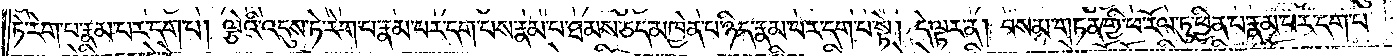ཏེ་རེག་པ་རྣམ་པར་དག་པ། ལྕེའི་འདུས་ཏེ་རེག་པ་རྣམ་པར་དག་པས་རྣམ་པ་ཐམས་ཅད་མཁྱེན་པ་ཉིད་རྣམ་པར་དག་པ་སྟེ། དེ་ལྟར་ན། བསམ་གཏན་གྱི་ཕ་རོལ་ཏུ་ཕྱིན་པ་རྣ་པར་དག་པ་
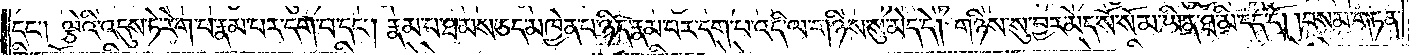དང༌། ལྕེའི་འདུས་ཏེ་རེག་པ་རྣམ་པར་དག་པ་དང༌། རྣམ་པ་ཐམས་ཅད་མཁྱེན་པ་ཉིད་རྣམ་པར་དག་པ་འདི་ལ་གཉིས་སུ་མེད་དེ། གཉིས་སུ་བྱར་མེད་སོ་སོ་མ་ཡིན་ཐ་མི་དད་དོ། །བསམ་གཏན་
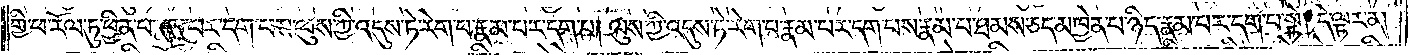གྱི་ཕ་རོལ་ཏུ་ཕྱིན་པ་རྣ་པར་དག་པས་ལུས་ཀྱི་འདུས་ཏེ་རེག་པ་རྣམ་པར་དག་པ། ལུས་ཀྱི་འདུས་ཏེ་རེག་པ་རྣམ་པར་དག་པས་རྣམ་པ་ཐམས་ཅད་མཁྱེན་པ་ཉིད་རྣམ་པར་དག་པ་སྟེ། དེ་ལྟར་ན།
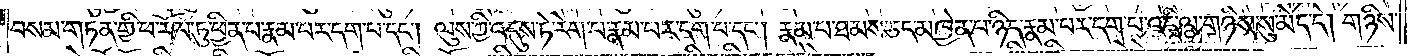བསམ་གཏན་གྱི་ཕ་རོལ་ཏུ་ཕྱིན་པ་རྣམ་པར་དག་པ་དང༌། ལུས་ཀྱི་འདུས་ཏེ་རེག་པ་རྣམ་པར་དག་པ་དང༌། རྣམ་པ་ཐམས་ཅད་མཁྱེན་པ་ཉིད་རྣམ་པར་དག་པ་འདི་ལ་གཉིས་སུ་མེད་དེ། གཉིས་
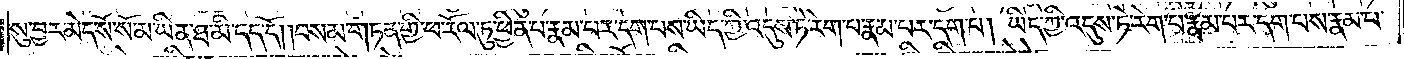སུ་བྱར་མེད་སོ་སོ་མ་ཡིན་ཐ་མི་དད་དོ། །བསམ་གཏན་གྱི་ཕ་རོལ་ཏུ་ཕྱིན་པ་རྣམ་པར་དག་པས་ཡིད་ཀྱི་འདུས་ཏེ་རེག་པ་རྣམ་པར་དག་པ། ཡིད་ཀྱི་འདུས་ཏེ་རེག་པ་རྣམ་པར་དག་པས་རྣམ་པ་
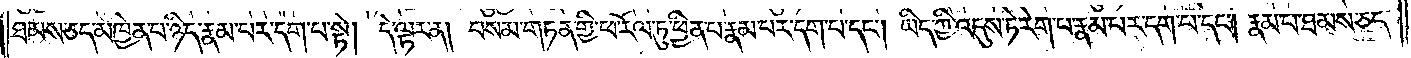ཐམས་ཅད་མཁྱེན་པ་ཉིད་རྣམ་པར་དག་པ་སྟེ། དེ་ལྟར་ན། བསམ་གཏན་གྱི་ཕ་རོལ་ཏུ་ཕྱིན་པ་རྣམ་པར་དག་པ་དང༌། ཡིད་ཀྱི་འདུས་ཏེ་རེག་པ་རྣམ་པར་དག་པ་དང༌། རྣམ་པ་ཐམས་ཅད་
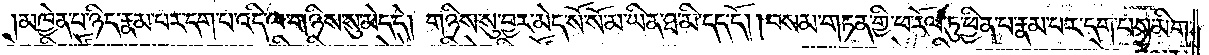མཁྱེན་པ་ཉིད་རྣམ་པར་དག་པ་འདི་ལ་གཉིས་སུ་མེད་དེ། གཉིས་སུ་བྱར་མེད་སོ་སོ་མ་ཡིན་ཐ་མི་དད་དོ། །བསམ་གཏན་གྱི་ཕ་རོལ་ཏུ་ཕྱིན་པ་རྣམ་པར་དག་པས་མིག་
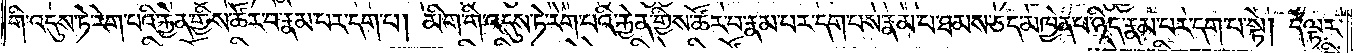གི་འདུས་ཏེ་རེག་པའི་རྐྱེན་གྱིས་ཚོར་བ་རྣམ་པར་དག་པ། མིག་གི་འདུས་ཏེ་རེག་པའི་རྐྱེན་གྱིས་ཚོར་བ་རྣམ་པར་དག་པས་རྣམ་པ་ཐམས་ཅད་མཁྱེན་པ་ཉིད་རྣམ་པར་དག་པ་སྟེ། དེ་ལྟར་
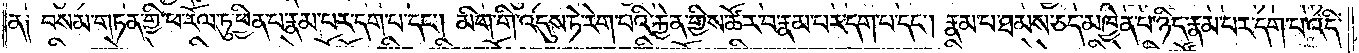ན། བསམ་གཏན་གྱི་ཕ་རོལ་ཏུ་ཕྱིན་པ་རྣམ་པར་དག་པ་དང༌། མིག་གི་འདུས་ཏེ་རེག་པའི་རྐྱེན་གྱིས་ཚོར་བ་རྣམ་པར་དག་པ་དང༌། རྣམ་པ་ཐམས་ཅད་མཁྱེན་པ་ཉིད་རྣམ་པར་དག་པ་འདི་
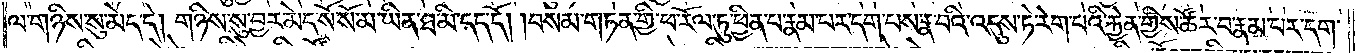ལ་གཉིས་སུ་མེད་དེ། གཉིས་སུ་བྱར་མེད་སོ་སོ་མ་ཡིན་ཐ་མི་དད་དོ། །བསམ་གཏན་གྱི་ཕ་རོལ་ཏུ་ཕྱིན་པ་རྣམ་པར་དག་པས་རྣ་བའི་འདུས་ཏེ་རེག་པའི་རྐྱེན་གྱིས་ཚོར་བ་རྣམ་པར་དག་
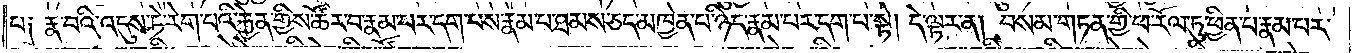པ། རྣ་བའི་འདུས་ཏེ་རེག་པའི་རྐྱེན་གྱིས་ཚོར་བ་རྣམ་པར་དག་པས་རྣམ་པ་ཐམས་ཅད་མཁྱེན་པ་ཉིད་རྣམ་པར་དག་པ་སྟེ། དེ་ལྟར་ན། བསམ་གཏན་གྱི་ཕ་རོལ་ཏུ་ཕྱིན་པ་རྣམ་པར་
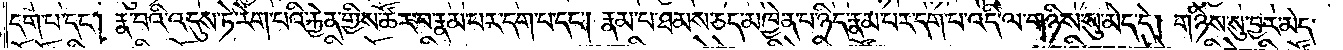དག་པ་དང༌། རྣ་བའི་འདུས་ཏེ་རེག་པའི་རྐྱེན་གྱིས་ཚོར་བ་རྣམ་པར་དག་པ་དང༌། རྣམ་པ་ཐམས་ཅད་མཁྱེན་པ་ཉིད་རྣམ་པར་དག་པ་འདི་ལ་གཉིས་སུ་མེད་དེ། གཉིས་སུ་བྱར་མེད་
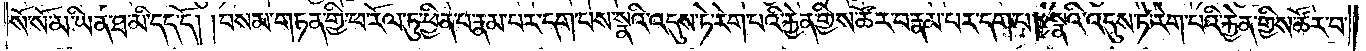སོ་སོ་མ་ཡིན་ཐ་མི་དད་དོ། །བསམ་གཏན་གྱི་ཕ་རོལ་ཏུ་ཕྱིན་པ་རྣམ་པར་དག་པས་སྣའི་འདུས་ཏེ་རེག་པའི་རྐྱེན་གྱིས་ཚོར་བ་རྣམ་པར་དག་པ། སྣའི་འདུས་ཏེ་རེག་པའི་རྐྱེན་གྱིས་ཚོར་བ་
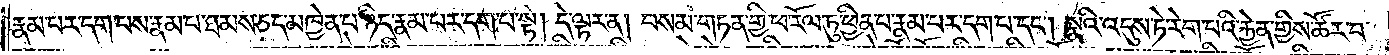རྣམ་པར་དག་པས་རྣམ་པ་ཐམས་ཅད་མཁྱེན་པ་ཉིད་རྣམ་པར་དག་པ་སྟེ། དེ་ལྟར་ན། བསམ་གཏན་གྱི་ཕ་རོལ་ཏུ་ཕྱིན་པ་རྣམ་པར་དག་པ་དང༌། སྣའི་འདུས་ཏེ་རེག་པའི་རྐྱེན་གྱིས་ཚོར་བ་
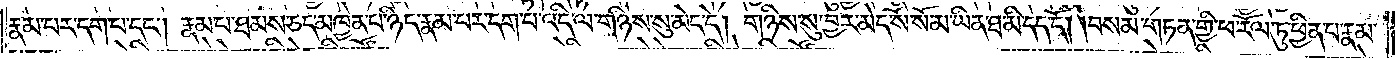རྣམ་པར་དག་པ་དང༌། རྣམ་པ་ཐམས་ཅད་མཁྱེན་པ་ཉིད་རྣམ་པར་དག་པ་འདི་ལ་གཉིས་སུ་མེད་དེ། གཉིས་སུ་བྱར་མེད་སོ་སོ་མ་ཡིན་ཐ་མི་དད་དོ། །བསམ་གཏན་གྱི་ཕ་རོལ་ཏུ་ཕྱིན་པ་རྣམ་
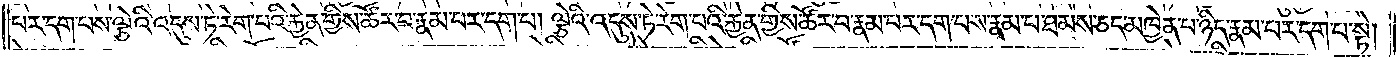པར་དག་པས་ལྕེའི་འདུས་ཏེ་རེག་པའི་རྐྱེན་གྱིས་ཚོར་བ་རྣམ་པར་དག་པ། ལྕེའི་འདུས་ཏེ་རེག་པའི་རྐྱེན་གྱིས་ཚོར་བ་རྣམ་པར་དག་པས་རྣམ་པ་ཐམས་ཅད་མཁྱེན་པ་ཉིད་རྣམ་པར་དག་པ་སྟེ།
